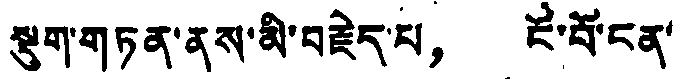སྡུག་གཏན་ནས་མི་བརྗེད་པ， ངོ་བོ་ངན་
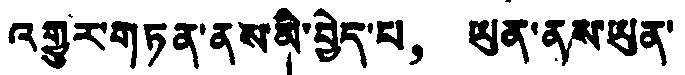འགྱུར་གཏན་ནས་མི་བྱེད་པ， ཡུན་ནས་ཡུན་
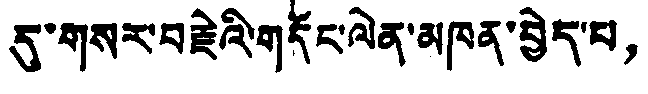དུ་གསར་བརྗེའི་གདོང་ལེན་མཁན་བྱེད་པ，
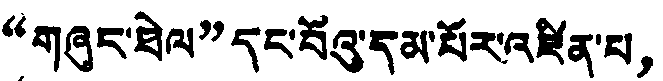“གཞུང་ཐེལ”དང་པོའུ་དམ་པོར་འཛིན་པ，
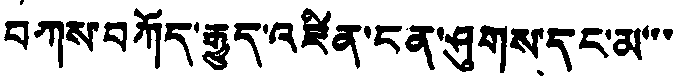བཀས་བཀོད་རྒྱུད་འཛིན་ངན་ཤུགས་དང་མ་་་
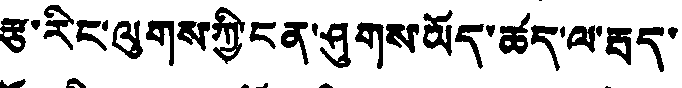རྩ་རིང་ལུགས་ཀྱི་ངན་ཤུགས་ཡོད་ཚད་ལ་རྦད་
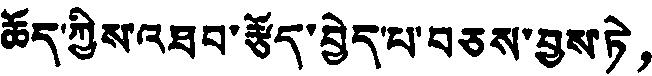ཆོད་ཀྱིས་འཐབ་རྩོད་བྱེད་པ་བཅས་བྱས་ཏེ，
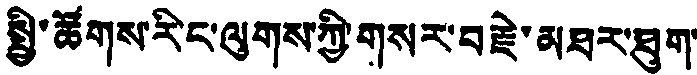སྤྱི་ཚོགས་རིང་ལུགས་ཀྱི་གསར་བརྗེ་མཐར་ཐུག་
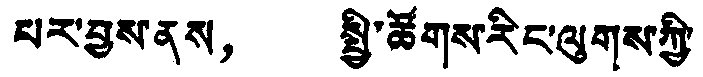པར་བྱས་ནས， སྤྱི་ཚོགས་རིང་ལུགས་ཀྱི་
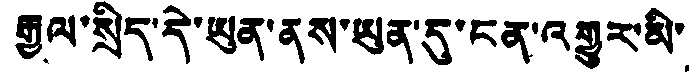རྒྱལ་སྲིད་དེ་ཡུན་ནས་ཡུན་དུ་ངན་འགྱུར་མི་
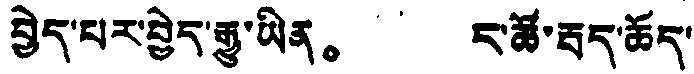བྱེད་པར་བྱེད་རྒྱུ་ཡིན。 ད་ཚོ་རྦད་ཆོད་
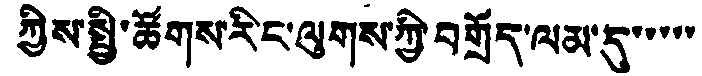ཀྱིས་སྤྱི་ཚོགས་རིང་ལུགས་ཀྱི་བགྲོད་ལམ་དུ་་་་་
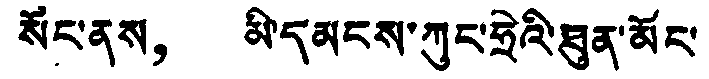སོང་ནས， མི་དམངས་ཀུང་ཧྲེའི་ཐུན་མོང་
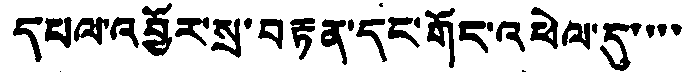དཔལ་འབྱོར་སྲ་བརྟན་དང་གོང་འཕེལ་དུ་་་་
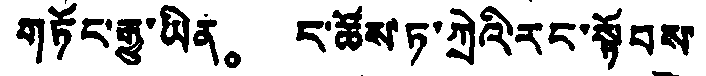གཏོང་རྒྱུ་ཡིན。 ང་ཚོས་ཏ་ཀྲེའི་རང་སྟོབས་
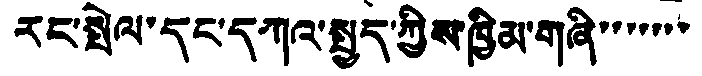རང་སྤེལ་དང་དཀའ་སྤྱད་ཀྱིས་ཁྱིམ་གཞི་་་་་་་
